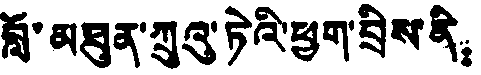བློ་མཐུན་ཀྲུའུ་ཏེའི་ཕྱག་བྲིས་ནི：
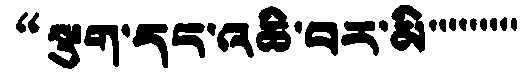“སྡུག་དང་འཆི་བར་མི་་་་་་་་་
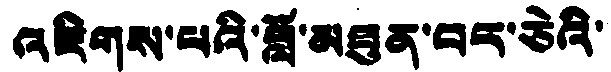འཇིགས་པའི་བློ་མཐུན་བང་ཅེའི་
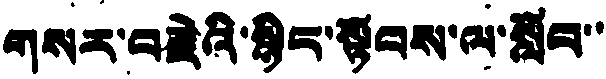གསར་བརྗེའི་སྙིང་སྟོབས་ལ་སློབ་་
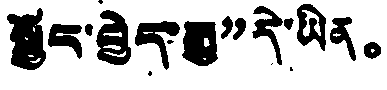སྦྱོང་བྱེད་རྒྱ”དེ་ཡིན。
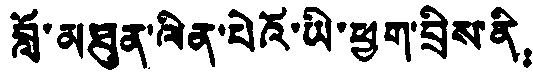བློ་མཐུན་ལིན་པེའོ་ཡི་ཕྱག་བྲིས་ནི：
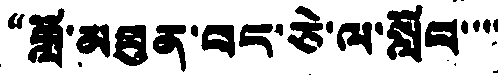“བློ་མཐུན་བང་ཅེ་ལ་སློབ་་་་
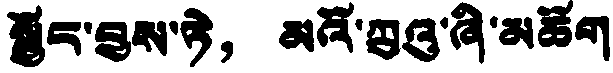སྦྱོང་བྱས་ཏེ，མའོ་ཀྲུའུ་ཞི་མཆོག
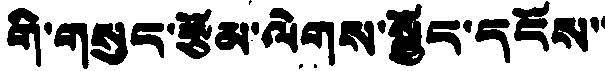གི་གསུང་རྩོམ་ལེགས་སྦྱོང་དངོས་་
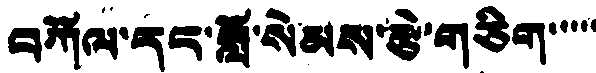བཀོལ་དང་བློ་སེམས་རྩེ་གཅིག་་་་་
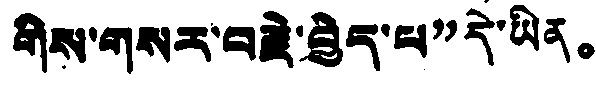གིས་གསར་བརྗེ་བྱེད་པ”དེ་ཡིན。
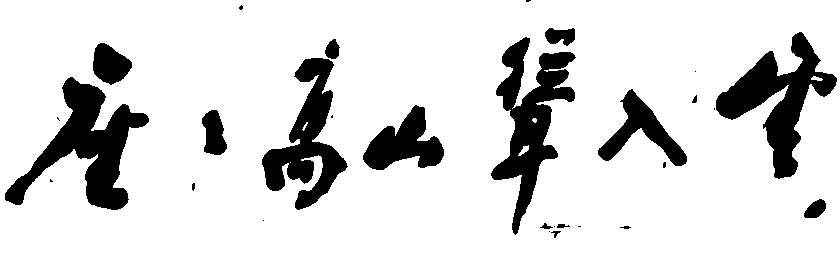座座高山聳入雲，
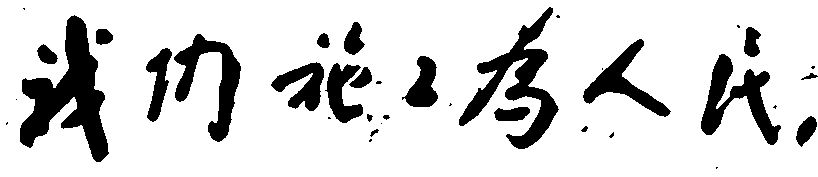我们施工為人民，
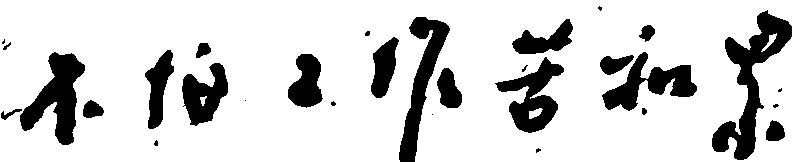不怕工作苦和累，
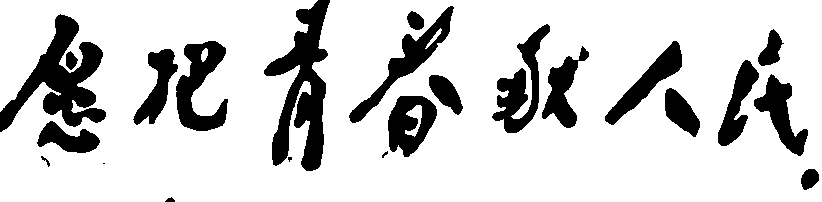愿把青春献人民。
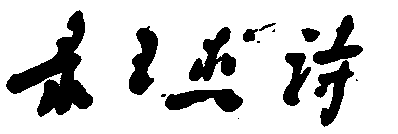录王杰诗
